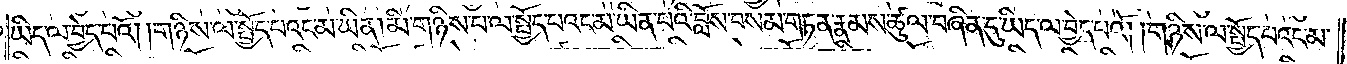ཡིད་ལ་བྱེད་པའོ། །གཉིས་ལ་སྤྱོད་པའང་མ་ཡིན། མི་གཉིས་པ་ལ་སྤྱོད་པའང་མ་ཡིན་པའི་བློས་བསམ་གཏན་རྣམས་ཚུལ་བཞིན་དུ་ཡིད་ལ་བྱེད་པའོ། །གཉིས་ལ་སྤྱོད་པའང་མ་
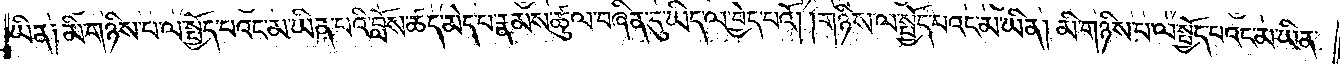ཡིན༑ མི་གཉིས་པ་ལ་སྤྱོད་པའང་མ་ཡིན་པའི་བློས་ཚད་མེད་པ་རྣམས་ཚུལ་བཞིན་དུ་ཡིད་ལ་བྱེད་པའོ། །གཉིས་ལ་སྤྱོད་པའང་མ་ཡིན། མི་གཉིས་པ་ལ་སྤྱོད་པའང་མ་ཡིན་
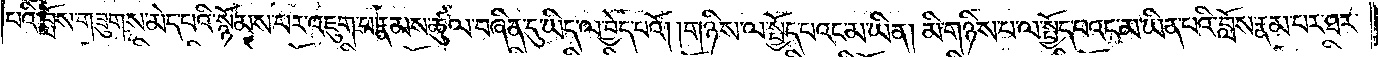པའི་བློས་གཟུགས་མེད་པའི་སྙོམས་པར་འཇུག་པ་རྣམས་ཚུལ་བཞིན་དུ་ཡིད་ལ་བྱེད་པའོ། །གཉིས་ལ་སྤྱོད་པའང་མ་ཡིན། མི་གཉིས་པ་ལ་སྤྱོད་པའང་མ་ཡིན་པའི་བློས་རྣམ་པར་ཐར་
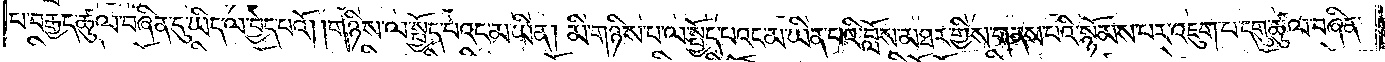པ་བརྒྱད་ཚུལ་བཞིན་དུ་ཡིད་ལ་བྱེད་པའོ། །གཉིས་ལ་སྤྱོད་པའང་མ་ཡིན། མི་གཉིས་པ་ལ་སྤྱོད་པའང་མ་ཡིན་པའི་བློས་མཐར་གྱིས་གནས་པའི་སྙོམས་པར་འཇུག་པ་དགུ་ཚུལ་བཞིན་
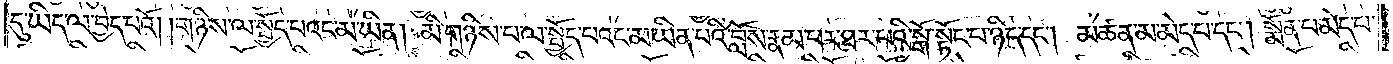དུ་ཡིད་ལ་བྱེད་པའོ། །གཉིས་ལ་སྤྱོད་པའང་མ་ཡིན། མི་གཉིས་པ་ལ་སྤྱོད་པའང་མ་ཡིན་པའི་བློས་རྣམ་པར་ཐར་པའི་སྒོ་སྟོང་པ་ཉིད་དང༌། མཚན་མ་མེད་པ་དང༌། སྨོན་པ་མེད་པ་
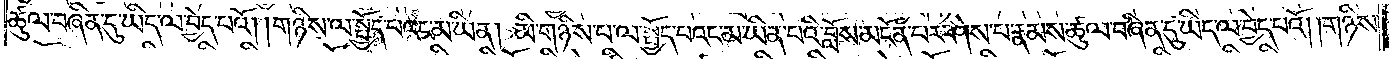ཚུལ་བཞིན་དུ་ཡིད་ལ་བྱེད་པའོ། །གཉིས་ལ་སྤྱོད་པའང་མ་ཡིན། མི་གཉིས་པ་ལ་སྤྱོད་པའང་མ་ཡིན་པའི་བློས་མངོན་པར་ཤེས་པ་རྣམས་ཚུལ་བཞིན་དུ་ཡིད་ལ་བྱེད་པའོ། །གཉིས་
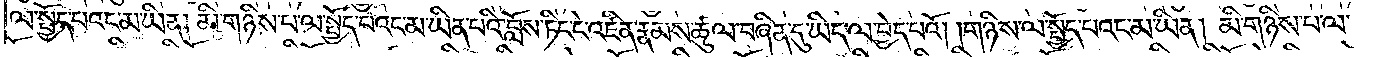ལ་སྤྱོད་པའང་མ་ཡིན། མི་གཉིས་པ་ལ་སྤྱོད་པའང་མ་ཡིན་པའི་བློས་ཏིང་ངེ་འཛིན་རྣམས་ཚུལ་བཞིན་དུ་ཡིད་ལ་བྱེད་པའོ། །གཉིས་ལ་སྤྱོད་པའང་མ་ཡིན། མི་གཉིས་པ་ལ་
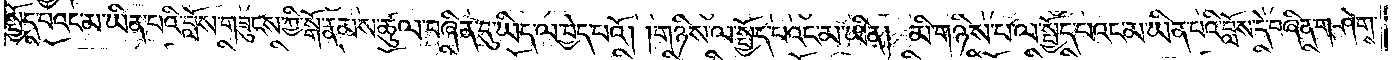སྤྱོད་པའང་མ་ཡིན་པའི་བློས་གཟུངས་ཀྱི་སྒོ་རྣམས་ཚུལ་བཞིན་དུ་ཡིད་ལ་བྱེད་པའོ། །གཉིས་ལ་སྤྱོད་པའང་མ་ཡིན། མི་གཉིས་པ་ལ་སྤྱོད་པའང་མ་ཡིན་པའི་བློས་དེ་བཞིན་གཤེགས་
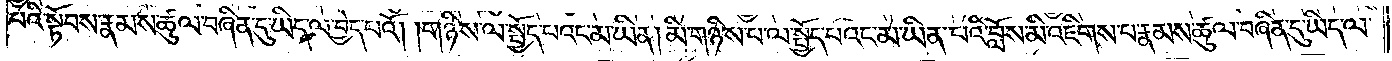པའི་སྟོབས་རྣམས་ཚུལ་བཞིན་དུ་ཡིད་ལ་བྱེད་པའོ། །གཉིས་ལ་སྤྱོད་པའང་མ་ཡིན། མི་གཉིས་པ་ལ་སྤྱོད་པའང་མ་ཡིན་པའི་བློས་མི་འཇིགས་པ་རྣམས་ཚུལ་བཞིན་དུ་ཡིད་ལ་
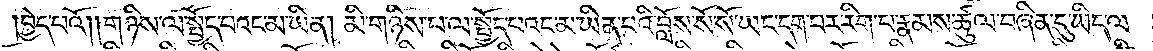བྱེད་པའོ། །གཉིས་ལ་སྤྱོད་པའང་མ་ཡིན། མི་གཉིས་པ་ལ་སྤྱོད་པའང་མ་ཡིན་པའི་བློས་སོ་སོ་ཡང་དག་པར་རིག་པ་རྣམས་ཚུལ་བཞིན་དུ་ཡིད་ལ་
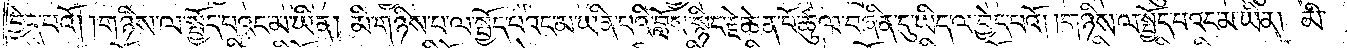བྱེད་པའོ། །གཉིས་ལ་སྤྱོད་པའང་མ་ཡིན། མི་གཉིས་པ་ལ་སྤྱོད་པའང་མ་ཡིན་པའི་བློས་སྙིང་རྗེ་ཆེན་པོ་ཚུལ་བཞིན་དུ་ཡིད་ལ་བྱེད་པའོ། །གཉིས་ལ་སྤྱོད་པའང་མ་ཡིན། མི་
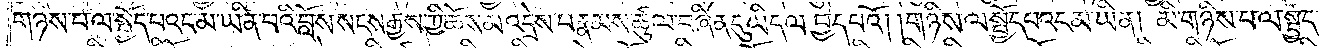གཉིས་པ་ལ་སྤྱོད་པའང་མ་ཡིན་པའི་བློས་སངས་རྒྱས་ཀྱི་ཆོས་མ་འདྲེས་པ་རྣམས་ཚུལ་བཞིན་དུ་ཡིད་ལ་བྱེད་པའོ། །གཉིས་ལ་སྤྱོད་པའང་མ་ཡིན། མི་གཉིས་པ་ལ་སྤྱོད་
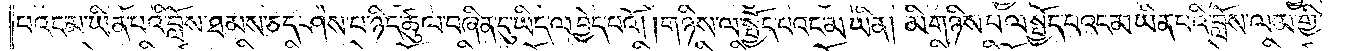པའང་མ་ཡིན་པའི་བློས་ཐམས་ཅད་ཤེས་པ་ཉིད་ཚུལ་བཞིན་དུ་ཡིད་ལ་བྱེད་པའོ། །གཉིས་ལ་སྤྱོད་པའང་མ་ཡིན། མི་གཉིས་པ་ལ་སྤྱོད་པའང་མ་ཡིན་པའི་བློས་ལམ་གྱི་
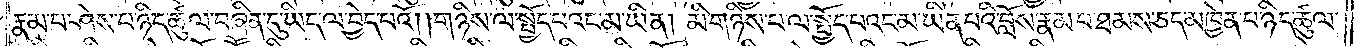རྣམ་པ་ཤེས་པ་ཉིད་ཚུལ་བཞིན་དུ་ཡིད་ལ་བྱེད་པའོ། །གཉིས་ལ་སྤྱོད་པའང་མ་ཡིན། མི་གཉིས་པ་ལ་སྤྱོད་པའང་མ་ཡིན་པའི་བློས་རྣམ་པ་ཐམས་ཅད་མཁྱེན་པ་ཉིད་ཚུལ་
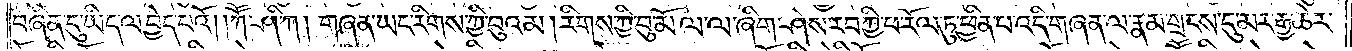བཞིན་དུ་ཡིད་ལ་བྱེད་པའོ། །ཀཽ་ཤི་ཀ། གཞན་ཡང་རིགས་ཀྱི་བུའམ། རིགས་ཀྱི་བུ་མོ་ལ་ལ་ཞིག་ཤེས་རབ་ཀྱི་ཕ་རོལ་ཏུ་ཕྱིན་པ་འདི་གཞན་ལ་རྣམ་གྲངས་དུ་མར་རྒྱ་ཆེར་
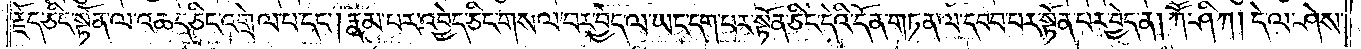རྗོད་ཅིང་སྟོན་ལ་འཆད་ཅིང་འགྲེལ་པ་དང༌། རྣམ་པར་འབྱེད་ཅིང་གསལ་བར་བྱེད་ལ་ཡང་དག་པར་སྟོན་ཅིང་དེའི་དོན་གཏན་ལ་དབབ་པར་སྟོན་པར་བྱེད་ན། ཀཽ་ཤི་ཀ། དེ་ལ་ཤེས་
